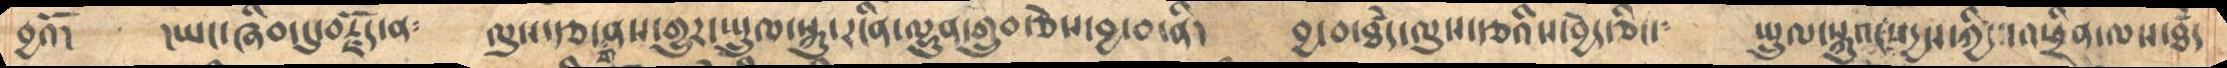བྱའོ།   །ཡང་ཞིབ་དུ་བརྗོད་ན༴    ལུས་རྩ་གནས་གྱུར་སྤྲུལ་སྐུ་རངིན་ལྷུན་གྲུབ་ཅེས་བྱ་བ་ནི།   བྱ་བ་ཐཾད་ལུས་རྩའིས་བྱེད་ཅིང་༴  སྤྲུལ་སྐུའང་སདྱས་ཀྱིས་འཕྲིན་ལས་ཐཾད
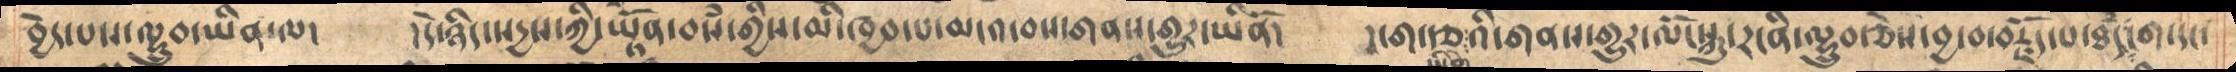བྱེད་པས་ལྷྲུབ་ཡིན་ལ།     །དེ་ཉིད་སདྱས་ཀྱི་ཡྟོན་བསཾ་གྱིས་མི་ཁྱབ་པ་མངའ་བས་གནས་གྱུར་ཡིནོ།     །ངག་རྩའི་གནས་གྱུར་ལོངསྐུ་རངིན་ལྷྲུབ་ཅེས་བྱ་བ་བརྗོད་པ་ཐཾདངག་དང་
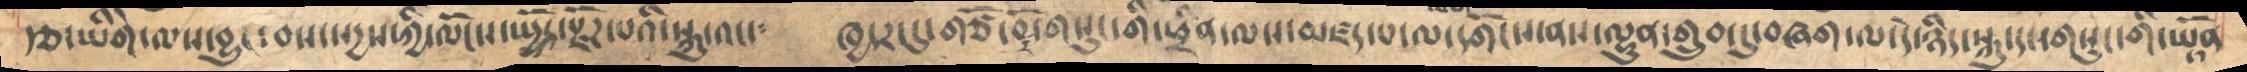རྩ་ཡིགེ་ལས་བྱུང་བས་སདྱས་ཀྱི་ལོངས་སྤྱོད་རྫོཌ་པའི་སྐུ་འང་༴  ཁྱདར་དུ་གཙོ་བོར་གསུང་གི་ཕྲིན་ལས་མཛད་པ་ལ་དགོངས་ནས་ལྷུན་གྲུབ་དུ་བཞག་ལ་དེ་ཉིད་སྐུ་དང་གསུང་གི་ཡྟོན
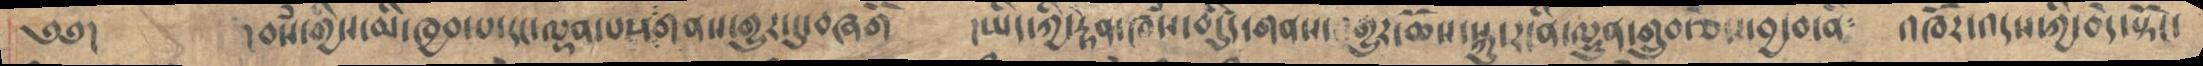༄༅།         །བསཾ་གྱིས་མི་ཁྱབ་པ་དང་ལྡན་པས་གནས་གྱུར་དུ་བཞགོ        །ཡིད་ཀྱི་རྟེན་ཁཾས་བདུཙིད་་གནས་གྱུར་ཆོས་སྐུ་རངིན་ལྷུན་གྲུབ་ཅེས་བྱ་བ་ནི༴    འཁོར་འདས་ཀྱི་བདེ་སྟོང་
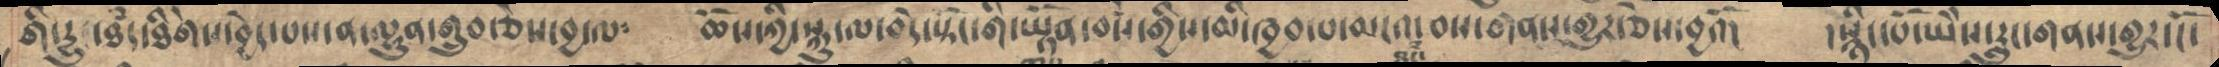གི་དྱུ་ཐཾད་ཐིགེས་བྱེད་པས་ན་ལྷུན་གྲུབ་ཅེས་བྱ་ལ༴     ཆོས་ཀྱི་སྐུ་ལ་བདེ་སྟོང་གི་ཡྟོན་བསཾ་གྱིས་མི་ཁྱབ་པ་མངའ་བས་གནས་གྱུར་ཅེས་བྱའོ།    །སྙིང་པོ་ཡཻས་རླུང་གནས་གྱུར་ངོ་
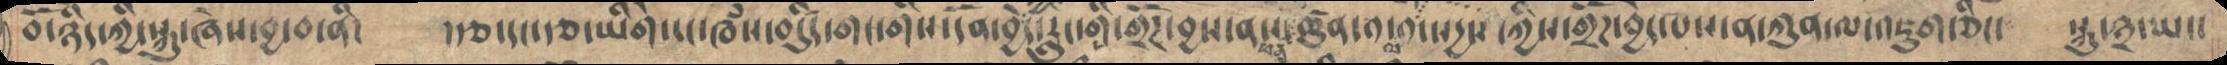བོ་ཉིད་ཀྱི་སྐུ་ཞེས་བྱ་བ་ནི།   །རྩ་དང་རྩ་ཡིགེ་དང་ཁཾས་བདུཙིད་གང་གིས་དོན་བྱེད་རླུང་གིས་གྲོཌ་བྱས་ནས་ཕན་ཚུན་༡་ལ་༡་སདྱས་ཀྱིས་གྲོཌ་བྱེད་པས་ན་ཀུན་ལ་འཇུག་ཅིང་  སྐུ་༣་ཡང་
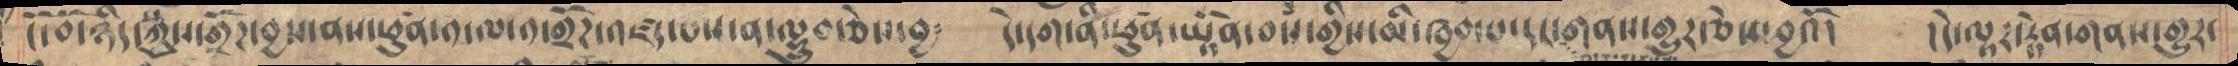ངོ་བོ་ཉིད་སྐུས་གྲོཌ་བྱས་ནས་ཕཚུན་༡་ལ་༡་གྲོཌ་འཛད་པས་ན་ལྷྲུབ་ཅེས་བྱ༴     དེ་དག་ནི་ཕཚུན་ཡྟོན་བསཾ་གྱིས་མི་ཁྱབ་པ་དང་གནས་གྱུར་ཅེས་བྱའོ།      །དེ་ལྟར་རྟེན་གནས་གྱུར་
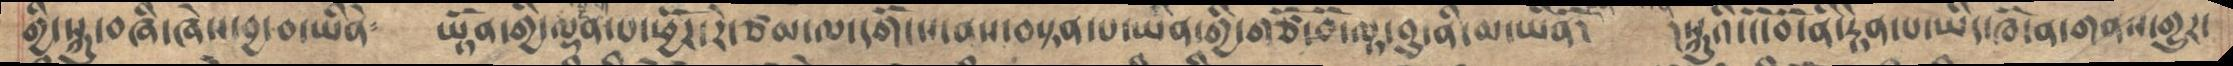གྱི་སྐུ་བཞི་ཞེས་བྱ་བ་ཡིནེ༴         ཡྟོན་གྱི་ལྡན་པ་ཕྱོཌ་རེ་ཙམ་ལ་དགོངས་ནས་བསྟན་པ་ཡིན་གྱི་གཙོ་བོ་ལྟ་བུ་ནི་མ་ཡིནོ།       །སྐུའི་ངོ་བོ་ནི་རྟེན་པ་ཡིད་ཁོ་ན་གནས་གྱུར་
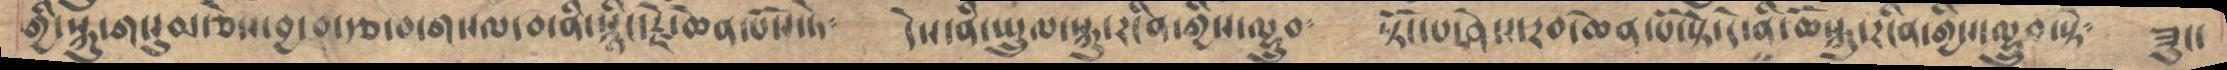གྱི་སྐུ་གསུམ་ཅེས་བྱ་བ་རྩ་བ་གསལ་བ་ནི་སྙིང་རྗེ་ཆེན་པོས་ཏེ༴      དེས་ནི་སྤྲུལ་སྐུ་རངིན་གྱིས་ལྷྲུབ༴    སྟོང་པ་ཤེས་རབ་ཆེན་པོ་སྟེ་དེ་ནི་ཆོསྐུ་རངིན་གྱིས་ལྷྲུབ་སྟེ༴    ཟུང་
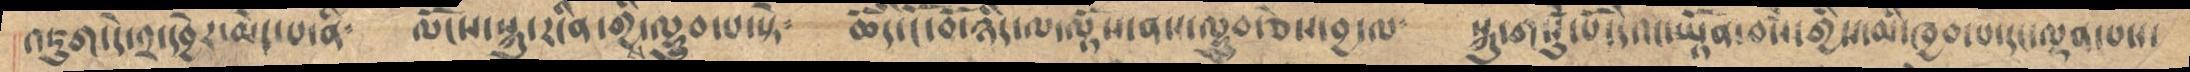འཇུག་དེ་༢་དབྱེར་མེད་པ་ནི༴    ལོངས་སྐུ་རངིན་གྱིས་ལྷྲུབ་པ་སྟེ༴    ཆོདི་ངོ་བོ་ཉིད་ལ་ལྟོས་ནས་ལྷྲུབ་ཅེས་བྱ་ལ༴   སྐུ་གསུཾ་པོ་དེའང་ཡྟོན་བསཾ་གྱིས་མི་ཁྱབ་པ་དང་ལྡན་པས་
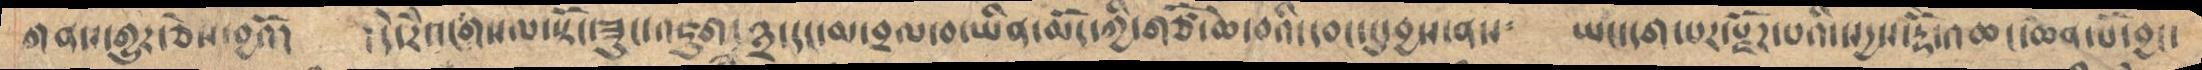གནས་གྱུར་ཅེས་བྱའོ།      །དེ་རཻའང་གསལ་སྟོང་ཟུང་འཇུག་༣་དང་མ་བྲལ་བ་ཡིན་མོད་ཀྱི་གཙོ་ཆེ་བའི་དབང་དུ་བྱས་ནས༴    ཡང་དག་པར་རྫོཌ་པའི་སདྱས་རྡོེ་འཆང་ཆེན་པོ་བྱང་
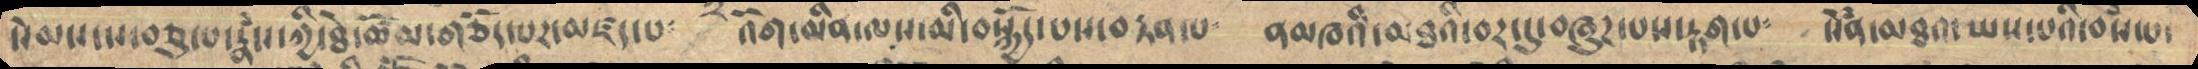སེམས་ས་བཅུ་པ་རྣཾས་ཀྱི་ཐེ་ཚོམ་གཅོད་པར་མཛད་པ༴  འོག་མིན་ལས་མི་བསྐྱོད་པས་བརྟན་པ༴    ནམཁའི་མཐའི་བར་དུ་བཞུཌ་པས་རྟག་པ༴   སེཾན་མཐའ་ཡས་པའི་བསཾ་པ་
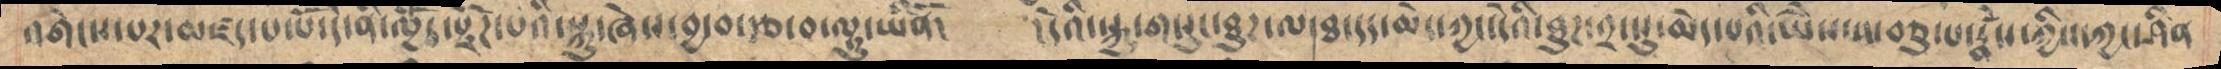འགེངས་པར་མཛད་པ་པོ་དེ་ནི་ལྱོད་རྫོཌ་པའི་སྐུ་ཞེས་བྱ་བ་རྩ་བ་ལྟུ་ཡིནོ།    །དེའི་སྐུ་གསུང་ཐུཌ་ལ་ཐ་དད་མེད་ཀྱང་དེའི་ཐུཌ་༢་སུ་མེད་པའི་ཡཻས་ས་བཅུ་པ་རྣཾས་ཀྱིས་ཀྱང་ཤིན
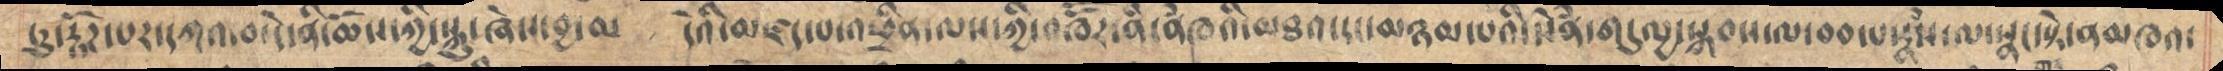ཏུ་རྟོཌ་པར་དཀའ་བ་དེ་ནི་ཆོས་ཀྱི་སྐུ་ཞེས་བྱ་བ་     དེའི་མཛད་པ་འཕྲིན་ལས་ཀྱི་འཁོར་ནི་ནཾཁའི་མཐའ་དང་མཉམ་པའི་སེཾན་གདུལྱ་སྐབས་ལ་བབ་པ་རྣཾས་ལ་སྣང་སྟེ་ནམཁའ་
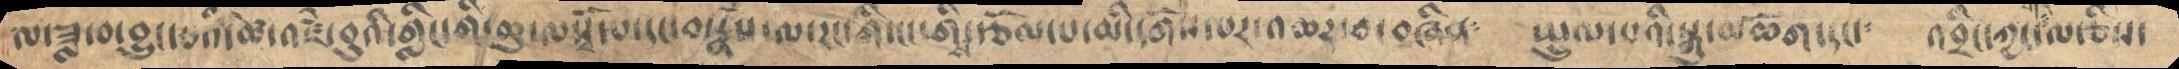ལ་ཟླ་བ་བྱུང་བའི་ཚེ་འཛཾ་བུའི་གླིང་གི་ཆུ་ལསྭོ་པ་དང་བསྣཾས་ལ་རང་གི་ངང་གིས་རྩོལ་པ་མི་དགོས་པར་འཆར་བ་བཞིན༴   སྤྲུལ་པའི་སྐུ་མཆོག་དང་༴  འབྲིང་ཀྱང་གང་ལ་ཅིས་
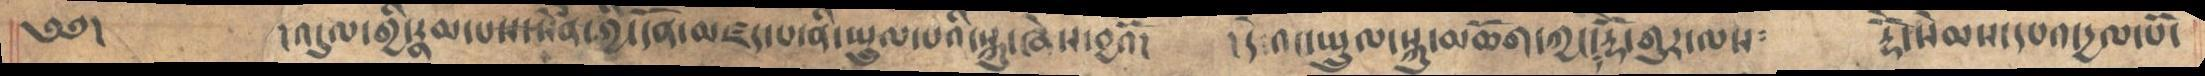༄༅།        །འདུལ་གྱི་རྣམ་པས་སེཾན་གྱི་དོན་མཛད་པ་ནི་སྤྲུལ་པའི་སྐུ་ཞེས་བྱའོ།      །དེ འང་སྤྲུལ་སྐུ་མཆོག་ཀྱང་རྡོེ་གུར་ལས༴    རྡོེ་སེམས་དཔའ་དྱལ་པོ་
